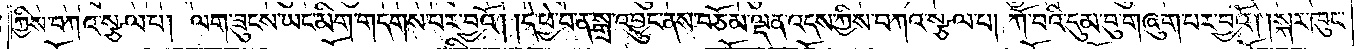ཀྱིས་བཀའ་སྩལ་པ། ལག་ཟུངས་ཡང་མིག་གདགས་པར་བྱའོ། །དེ་ཕྱེ་བ་ན་སྒྲ་འབྱུང་ནས་བཅོམ་ལྡན་འདས་ཀྱིས་བཀའ་སྩལ་པ། ཀོ་བའི་དུམ་བུ་གཞུག་པར་བྱའོ། །སྐར་ཁུང་
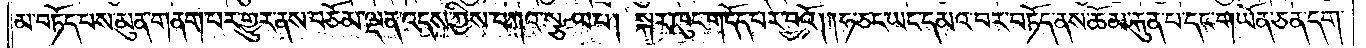མ་བཏོད་པས་མུན་གནག་པར་གྱུར་ནས་བཅོམ་ལྡན་འདས་ཀྱིས་བཀའ་སྩལ་པ། སྐར་ཁུང་གདོད་པར་བྱའོ། །ཧ་ཅང་ཡང་དམའ་བར་བཏོད་ནས་ཆོམ་རྐུན་པ་དང་གཡོན་ཅན་དག་
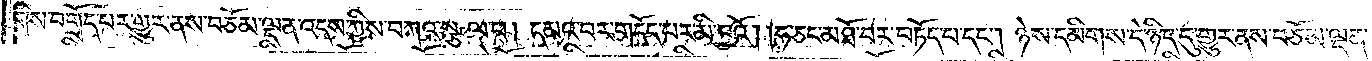གིས་བགྲོད་པར་གྱུར་ནས་བཅོམ་ལྡན་འདས་ཀྱིས་བཀའ་སྩལ་པ། དམའ་བར་གདོད་པར་མི་བྱའོ། །ཧ་ཅང་མཐོ་བར་བཏོད་པ་དང༌། ཉེས་དམིགས་དེ་ཉིད་དུ་གྱུར་ནས་བཅོམ་ལྡན་
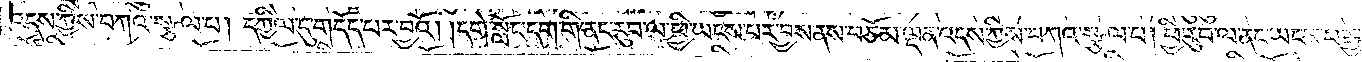འདས་ཀྱིས་བཀའ་སྩལ་པ། དཀྱིལ་དུ་གདོད་པར་བྱའོ། །དགེ་སློང་དག་གི་ནང་རུབ་ལ་ཕྱི་ཡངས་པར་བྱས་ནས་བཅོམ་ལྡན་འདས་ཀྱིས་བཀའ་སྩལ་པ། ཕྱི་རུབ་ལ་ནང་ཡངས་པ་རྒྱ་
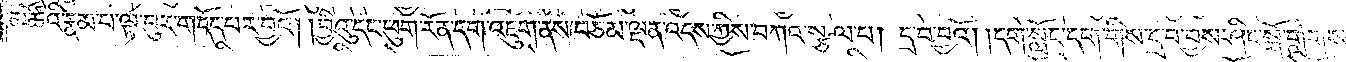མཚོའི་རྣམ་པ་ལྟ་བུར་གདོད་པར་བྱའོ། །བྱིའུ་དང་ཕུག་རོན་དག་འཇུག་ནས་བཅོམ་ལྡན་འདས་ཀྱིས་བཀའ་སྩལ་པ། དྲ་བ་བྱའོ། །དགེ་སློང་དག་གིས་དྲ་བ་བྱས་ཤིང་སྒོ་གླེགས་མ་
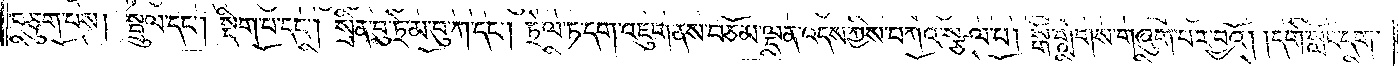བཅུག་པས། སྦྲུལ་དང༌། སྡིག་པ་དང༌། སྲིན་བུ་ཏྲེ་མ་བུ་ཀ་དང༌། ཏྲེ་ལ་ཏ་དག་འཇུག་ནས་བཅོམ་ལྡན་འདས་ཀྱིས་བཀའ་སྩལ་པ། སྒོ་གླེགས་གཞུག་པར་བྱའོ། །དགེ་སློང་དག་
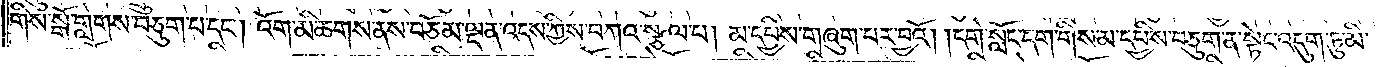གིས་སྒོ་གླགས་བཅུག་པ་དང༌། འོག་མི་ཆགས་ནས་བཅོམ་ལྡན་འདས་ཀྱིས་བཀའ་སྩལ་པ། མ་དཔྱིས་གཞུག་པར་བྱའོ། །དགེ་སློང་དག་གིས་མ་དཔྱིས་བཅུག་ན་སྟེང་འདུག་ཏུ་མི་
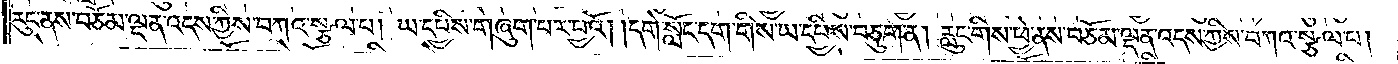རུང་ནས་བཅོམ་ལྡན་འདས་ཀྱིས་བཀའ་སྩལ་པ། ཡ་དཔྱིས་གཞུག་པར་བྱའོ། །དགེ་སློང་དག་གིས་ཡ་དཔྱིས་བཅུག་ན། རླུང་གིས་ཕྱེ་ནས་བཅོམ་ལྡན་འདས་ཀྱིས་བཀའ་སྩལ་པ།
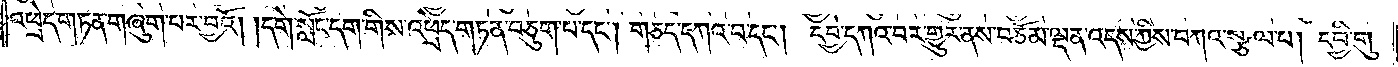འཕྲེད་གཏན་གཞུག་པར་བྱའོ། །དགེ་སློང་དག་གིས་འཕྲེད་གཏན་བཅུག་པ་དང༌། གཅད་དཀའ་བ་དང༌། དབྱེ་དཀའ་བར་གྱུར་ནས་བཅོམ་ལྡན་འདས་ཀྱིས་བཀའ་སྩལ་པ། དབྱི་གུ་
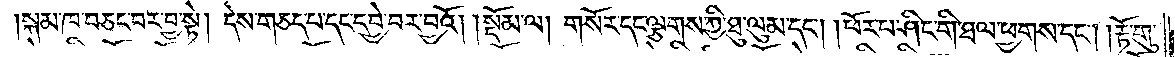སྐམ་ཁ་བཅང་བར་བྱ་སྟེ། དེས་གཅད་པ་དང་དབྱེ་བར་བྱའོ།    །སྡོམ་ལ། གསོར་དང་ལྕགས་ཀྱི་ཐུ་ལུམ་དང༌། །ཕོར་པ་ཤིང་གི་ཐལ་ཕྱགས་དང༌། །རྟོ་གུ་
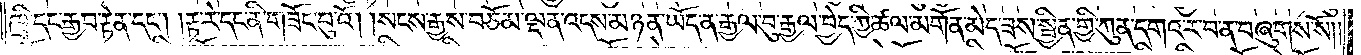ཁྲི་དང་རྒྱབ་རྟེན་དང༌། །རྟ་རེ་དང་ནི་གཟོང་བུ་འོ། །སངས་རྒྱས་བཅོམ་ལྡན་འདས་མཉན་ཡོད་ན་རྒྱལ་བུ་རྒྱལ་བྱེད་ཀྱི་ཚལ་མགོན་མེད་ཟས་སྦྱིན་གྱི་ཀུན་དགའ་ར་བ་ན་བཞུགས་སོ། །
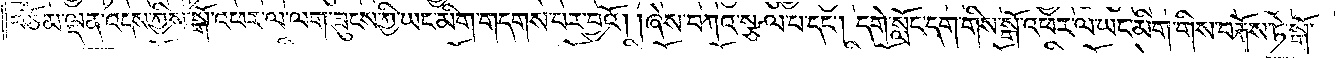བཅོམ་ལྡན་འདས་ཀྱིས་སྒོ་འཕར་ལ་ལག་ཟུངས་ཀྱི་ཡང་མིག་གདགས་པར་བྱའོ། །ཞེས་བཀའ་སྩལ་པ་དང༌། དགེ་སློང་དག་གིས་སྒོ་འཕར་ལ་ཡང་མིག་གིས་བརྐོས་ཏེ་སྒོ་
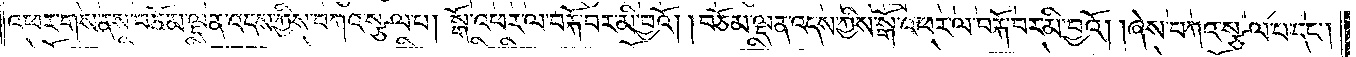འཕར་གས་ནས་བཅོམ་ལྡན་འདས་ཀྱིས་བཀའ་སྩལ་པ། སྒོ་འཕར་ལ་བརྐོ་བར་མི་བྱའོ། །བཅོམ་ལྡན་འདས་ཀྱིས་སྒོ་འཕར་ལ་བརྐོ་བར་མི་བྱའོ། །ཞེས་བཀའ་སྩལ་པ་དང༌།
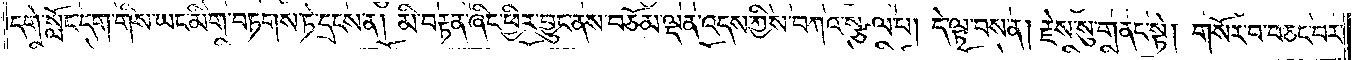དགེ་སློང་དག་གིས་ཡང་མིག་བཏགས་ཏེ་དྲངས་ན། མི་བརྟན་ཞིང་ཕྱིར་བྱུང་ནས་བཅོམ་ལྡན་འདས་ཀྱིས་བཀའ་སྩལ་པ། དེ་ལྟ་བས་ན། རྗེས་སུ་གནང་སྟེ། གསོར་བ་བཅང་བར་
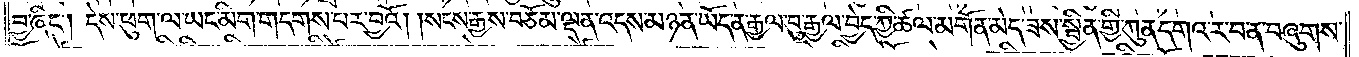བྱ་ཞིང༌། དེས་ཕུག་ལ་ཡང་མིག་གདགས་པར་བྱའོ། །སངས་རྒྱས་བཅོམ་ལྡན་འདས་མཉན་ཡོད་ན་རྒྱལ་བུ་རྒྱལ་བྱེད་ཀྱི་ཚལ་མགོན་མེད་ཟས་སྦྱིན་གྱི་ཀུན་དགའ་ར་བ་ན་བཞུགས་
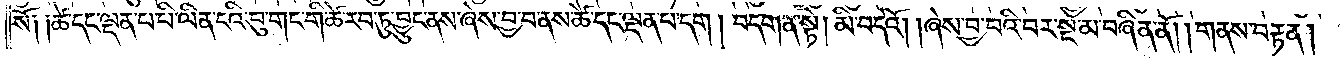སོ༑ ༑ཚེ་དང་ལྡན་པ་པི་ལིན་ངའི་བུ་གང་གི་ཚེ་རབ་ཏུ་བྱུང་ནས་ཞེས་བྱ་བ་ནས་ཚེ་དང་ལྡན་པ་དག །བདག་ན་སྟེ། མི་བདེའོ། །ཞེས་བྱ་བའི་བར་སྔ་མ་བཞིན་ནོ། །གནས་བརྟན།
